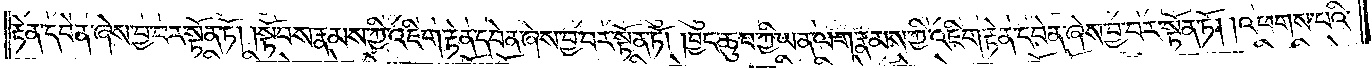རྟེན་དབེན་ཞེས་བྱ་བར་སྟོན་ཏོ། །སྟོབས་རྣམས་ཀྱི་འཇིག་རྟེན་དབེན་ཞེས་བྱ་བར་སྟོན་ཏོ། །བྱང་ཆུབ་ཀྱི་ཡན་ལག་རྣམས་ཀྱི་འཇིག་རྟེན་དབེན་ཞེས་བྱ་བར་སྟོན་ཏོ། །འཕགས་པའི་
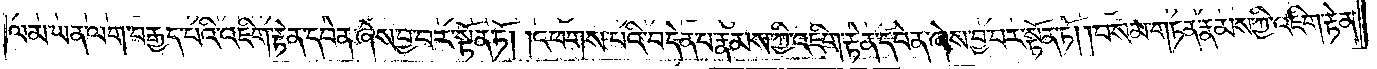ལམ་ཡན་ལག་བརྒྱད་པའི་འཇིག་རྟེན་དབེན་ཞེས་བྱ་བར་སྟོན་ཏོ། །འཕགས་པའི་བདེན་པ་རྣམས་ཀྱི་འཇིག་རྟེན་དབེན་ཞེས་བྱ་བར་སྟོན་ཏོ། །བསམ་གཏན་རྣམས་ཀྱི་འཇིག་རྟེན་
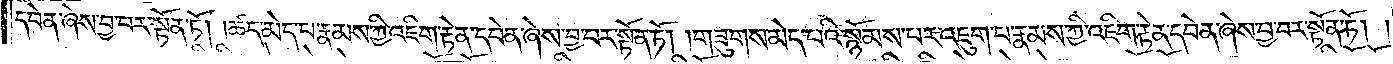དབེན་ཞེས་བྱ་བར་སྟོན་ཏོ། །ཚད་མེད་པ་རྣམས་ཀྱི་འཇིག་རྟེན་དབེན་ཞེས་བྱ་བར་སྟོན་ཏོ། །གཟུགས་མེད་པའི་སྙོམས་པར་འཇུག་པ་རྣམས་ཀྱི་འཇིག་རྟེན་དབེན་ཞེས་བྱ་བར་སྟོན་ཏོ། །
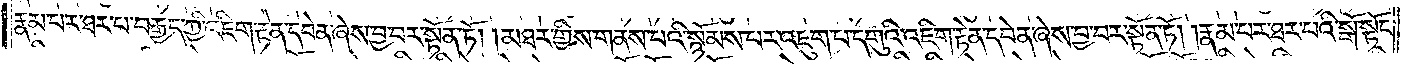རྣམ་པར་ཐར་པ་བརྒྱད་ཀྱི་འཇིག་རྟེན་དབེན་ཞེས་བྱ་བར་སྟོན་ཏོ། །མཐར་གྱིས་གནས་པའི་སྙོམས་པར་འཇུག་པ་དགུའི་འཇིག་རྟེན་དབེན་ཞེས་བྱ་བར་སྟོན་ཏོ། །རྣམ་པར་ཐར་པའི་སྒོ་སྟོང་
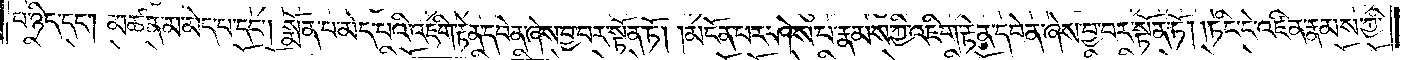པ་ཉིད་དང༌། མཚན་མ་མེད་པ་དང༌། སྨོན་པ་མེད་པའི་འཇིག་རྟེན་དབེན་ཞེས་བྱ་བར་སྟོན་ཏོ། །མངོན་པར་ཤེས་པ་རྣམས་ཀྱི་འཇིག་རྟེན་དབེན་ཞེས་བྱ་བར་སྟོན་ཏོ། །ཏིང་ངེ་འཛིན་རྣམས་ཀྱི་
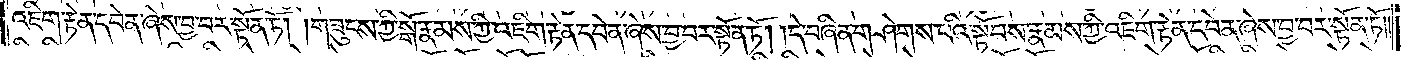འཇིག་རྟེན་དབེན་ཞེས་བྱ་བར་སྟོན་ཏོ། །གཟུངས་ཀྱི་སྒོ་རྣམས་ཀྱི་འཇིག་རྟེན་དབེན་ཞེས་བྱ་བར་སྟོན་ཏོ། །དེ་བཞིན་གཤེགས་པའི་སྟོབས་རྣམས་ཀྱི་འཇིག་རྟེན་དབེན་ཞེས་བྱ་བར་སྟོན་ཏོ། །
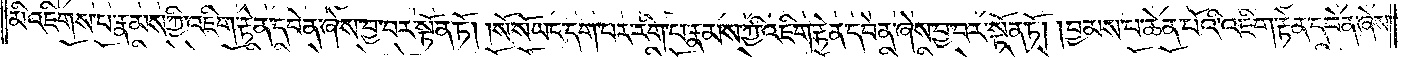མི་འཇིགས་པ་རྣམས་ཀྱི་འཇིག་རྟེན་དབེན་ཞེས་བྱ་བར་སྟོན་ཏོ། །སོ་སོ་ཡང་དག་པར་རིག་པ་རྣམས་ཀྱི་འཇིག་རྟེན་དབེན་ཞེས་བྱ་བར་སྟོན་ཏོ། །བྱམས་པ་ཆེན་པོའི་འཇིག་རྟེན་དབེན་ཞེས་
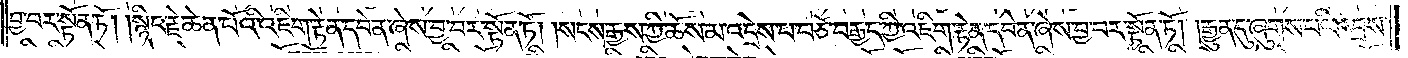བྱ་བར་སྟོན་ཏོ། །སྙིང་རྗེ་ཆེན་པོའི་འཇིག་རྟེན་དབེན་ཞེས་བྱ་བར་སྟོན་ཏོ། །སངས་རྒྱས་ཀྱི་ཆོས་མ་འདྲེས་པ་བཅོ་བརྒྱད་ཀྱི་འཇིག་རྟེན་དབེན་ཞེས་བྱ་བར་སྟོན་ཏོ། །རྒྱུན་དུ་ཞུགས་པའི་འབྲས་
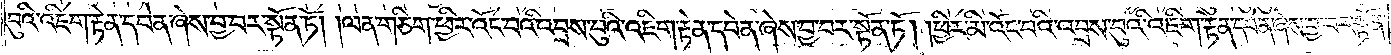བུའི་འཇིག་རྟེན་དབེན་ཞེས་བྱ་བར་སྟོན་ཏོ། །ལན་གཅིག་ཕྱིར་འོང་བའི་འབྲས་བུའི་འཇིག་རྟེན་དབེན་ཞེས་བྱ་བར་སྟོན་ཏོ། །ཕྱིར་མི་འོང་བའི་འབྲས་བུའི་འཇིག་རྟེན་དབེན་ཞེས་བྱ་བར་སྟོན་
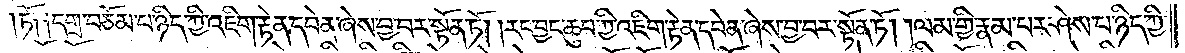ཏོ༑ ༑དགྲ་བཅོམ་པ་ཉིད་ཀྱི་འཇིག་རྟེན་དབེན་ཞེས་བྱ་བར་སྟོན་ཏོ། །རང་བྱང་ཆུབ་ཀྱི་འཇིག་རྟེན་དབེན་ཞེས་བྱ་བར་སྟོན་ཏོ། །ལམ་གྱི་རྣམ་པ་ཤེས་པ་ཉིད་ཀྱི་
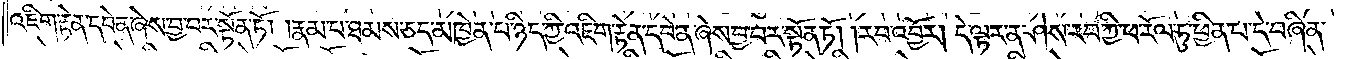འཇིག་རྟེན་དབེན་ཞེས་བྱ་བར་སྟོན་ཏོ། །རྣམ་པ་ཐམས་ཅད་མཁྱེན་པ་ཉིད་ཀྱི་འཇིག་རྟེན་དབེན་ཞེས་བྱ་བར་སྟོན་ཏོ། །རབ་འབྱོར། དེ་ལྟར་ན་ཤེས་རབ་ཀྱི་ཕ་རོལ་ཏུ་ཕྱིན་པ་དེ་བཞིན་
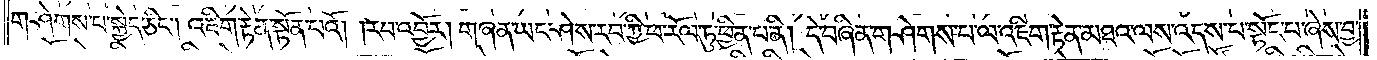གཤེགས་པ་སྐྱེད་ཅིང༌། འཇིག་རྟེན་སྟོན་པའོ། །རབ་འབྱོར། གཞན་ཡང་ཤེས་རབ་ཀྱི་ཕ་རོལ་ཏུ་ཕྱིན་པ་ནི། དེ་བཞིན་གཤེགས་པ་ལ་འཇིག་རྟེན་མཐའ་ལས་འདས་པ་སྟོང་པ་ཞེས་བྱ་
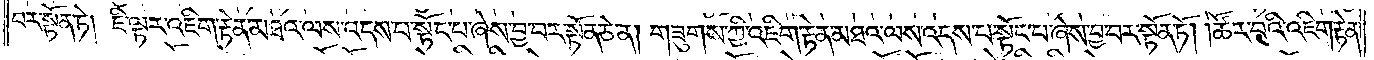བར་སྟོན་ཏེ། ཇི་ལྟར་འཇིག་རྟེན་མཐའ་ལས་འདས་པ་སྟོང་པ་ཞེས་བྱ་བར་སྟོན་ཅེ་ན། གཟུགས་ཀྱི་འཇིག་རྟེན་མཐའ་ལས་འདས་པ་སྟོང་པ་ཞེས་བྱ་བར་སྟོན་ཏོ། །ཚོར་བའི་འཇིག་རྟེན་
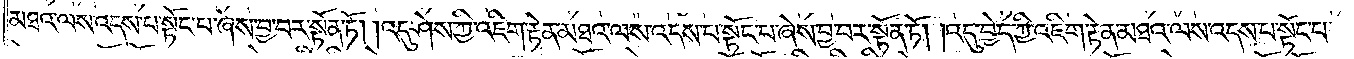མཐའ་ལས་འདས་པ་སྟོང་པ་ཞེས་བྱ་བར་སྟོན་ཏོ། །འདུ་ཤེས་ཀྱི་འཇིག་རྟེན་མཐའ་ལས་འདས་པ་སྟོང་པ་ཞེས་བྱ་བར་སྟོན་ཏོ། །འདུ་བྱེད་ཀྱི་འཇིག་རྟེན་མཐའ་ལས་འདས་པ་སྟོང་པ་
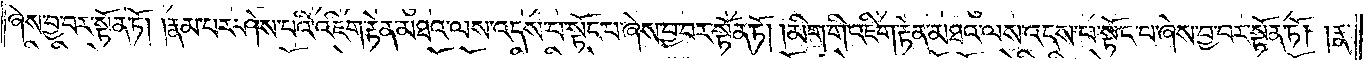ཞེས་བྱ་བར་སྟོན་ཏོ། །རྣམ་པར་ཤེས་པའི་འཇིག་རྟེན་མཐའ་ལས་འདས་པ་སྟོང་པ་ཞེས་བྱ་བར་སྟོན་ཏོ། །མིག་གི་འཇིག་རྟེན་མཐའ་ལས་འདས་པ་སྟོང་པ་ཞེས་བྱ་བར་སྟོན་ཏོ། །རྣ་
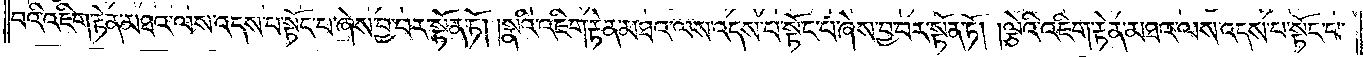བའི་འཇིག་རྟེན་མཐའ་ལས་འདས་པ་སྟོང་པ་ཞེས་བྱ་བར་སྟོན་ཏོ། །སྣའི་འཇིག་རྟེན་མཐའ་ལས་འདས་པ་སྟོང་པ་ཞེས་བྱ་བར་སྟོན་ཏོ། །ལྕེའི་འཇིག་རྟེན་མཐའ་ལས་འདས་པ་སྟོང་པ་
